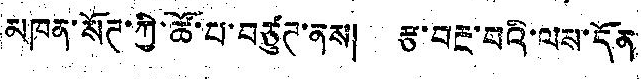མཁན་སོཊ་ཀྱི་ཚོ་པ་བཙུཊ་ནས། རྩ་བརྔ་བའི་ལས་དོན
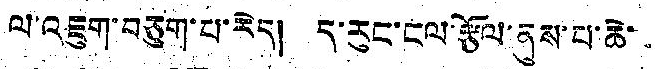ལ་འཇུག་བཅུག་པ་རེད། ད་རུང་ང་རྩོལ་ནུས་པ་ཆེ་
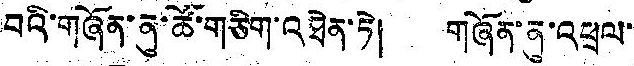བའི་གཞོན་ནུ་ཚོ་གཅིག་འཐེན་ཏེ། གཞོན་ནུ་འཕྲལ་
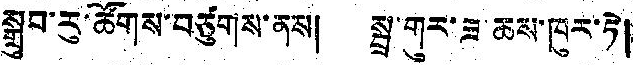སྒྲུབ་རུ་ཚོགས་བཙུགས་ནས། སྦྲ་གུར་ཟ་ཆས་ཁུར་ཏེ།
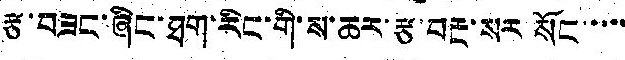རྩ་བཟང་ཞིང་ཐག་རིང་གི་ས་ཆར་རྩ་བརྔ་སར སོང་་་་་
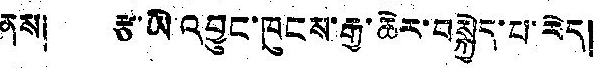ནས། རྩ་ཡི འབྱུང་ཁུངས་རྒྱ་ཆེར་བསྐྱེད་པ་རེད།
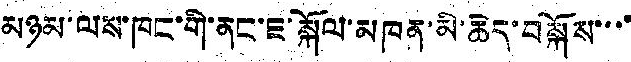མཉམ་ལས་ཁང་གི་ནང་ཇ་སྐོལ་མཁན་མི་ཆེད་བསྐོས་་་་
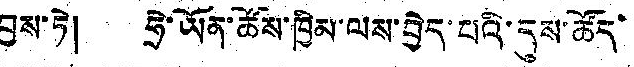བྱས་ཏེ། ཧྲེ་ཡོན་ཚོས་ཁྱིམ་ལས་བྱེད་པའི་དུས་ཚོད་
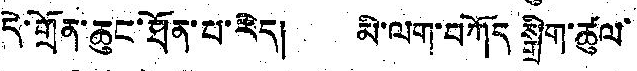དེ་གྲོན་ཆུང་ཐོན་པ་རེད། མི་ལག་བཀོད སྒྲིག་ཚུལ་
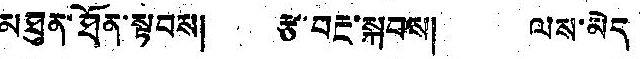མཐུན་ཐོན་སྟབས། རྩ་བརྔ་སྐབས། ལས་མེད
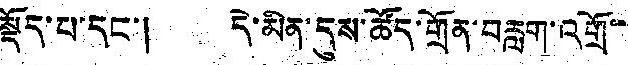སྡོད་པ་དང་། དེ་མིན་དུས་ཚོད་གྲོན་བརླག་འགྲོ་
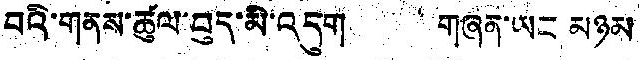བའི་གནས་ཚུལ་བུད་མི་འདུག གཞན་ཡང མཉམ
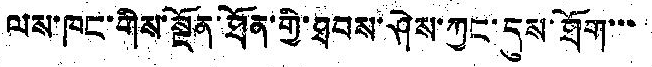ལས་ཁང་གིས་སྔོན་ཐོན་གྱི་ཐབས་ཤེས་ཀྱང་དུས་ཐོག་་་
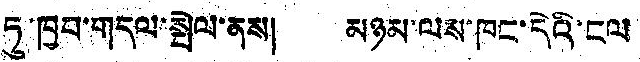ཏུ་ཁྱབ་གདལ་སྤེལ་ནས། མཉམ་ལས་ཁང་དེའི་ངལ
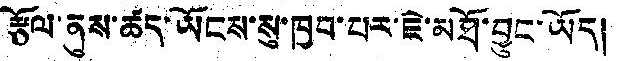རྩོལ་ནུས་ཚད་ཡོངས་སུ་ཁྱབ་པར་ཇེ་མཐོ་བྱུང་ཡོད།
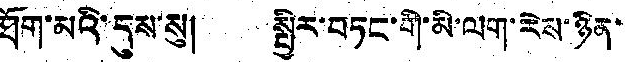ཐོག་མའི་དུས་སུ། སྤྱིར་བཏང་གི་མི་ལག་རེས་ཉིན་
